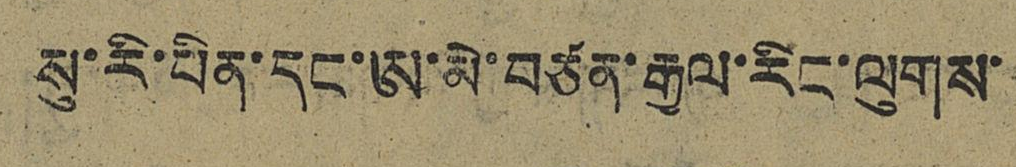སུ་རི་པིན་དང་ཨ་མེ་བཙན་རྒྱལ་རིང་ལུགས་
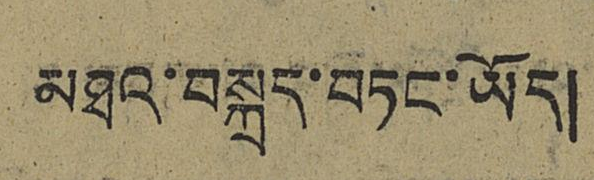མཐའ་བསྐྲད་བཏང་ཡོད།
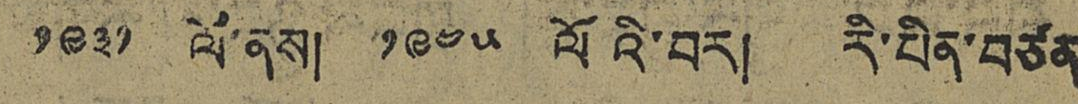༡༩༣༡ ལོ་ནས། ༡༩༤༥ ལོའི་བར། རི་པིན་བཙན
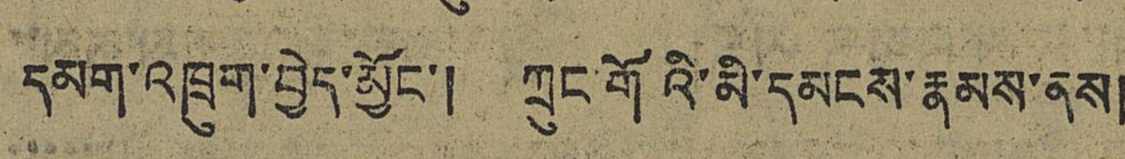དམག་འཁྲུག་བྱེད་མྱོང་། ཀྲུང་གོའི་མི་དམངས་རྣམས་ནས།
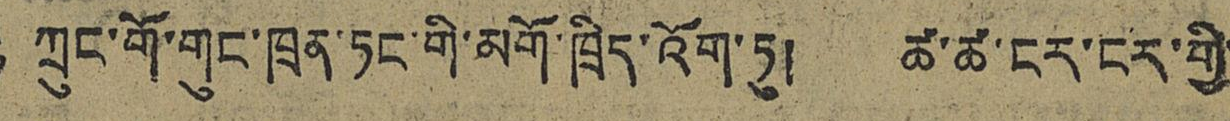ཀྲུང་གོ་གུང་ཁྲན་ཏང་གི་མགོ་ཁྲིད་འོག་ཏུ། ཚ་ཚ་ངར་ངར་གྱི་
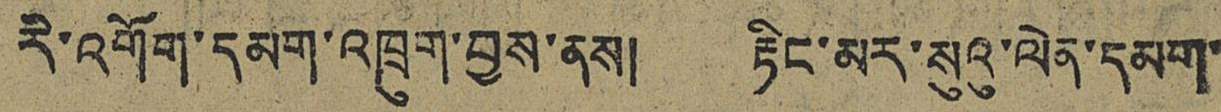རི་འགོག་དམག་འཁྲུག་བྱས་ནས། རྟིང་མར་སུའུ་ལེན་དམག་
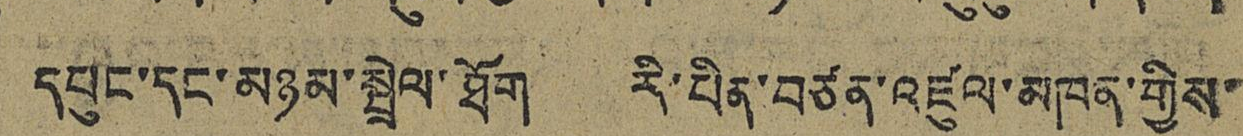དཔུང་དང་མཉམ་སྦྲེལ་ཐོག རི་པིན་བཙན་འཛུལ་མཁན་གྱིས་
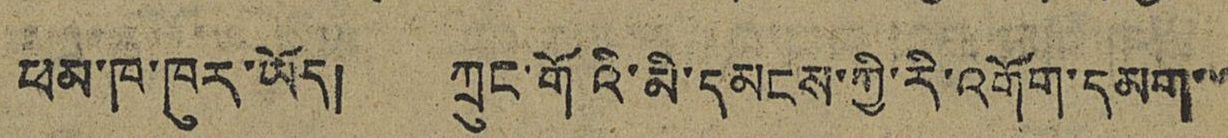ཕམ་ཁ་ཁུར་ཡོད། ཀྲུང་གོའི་མི་དམངས་ཀྱི་རི་འགོག་དམག་་
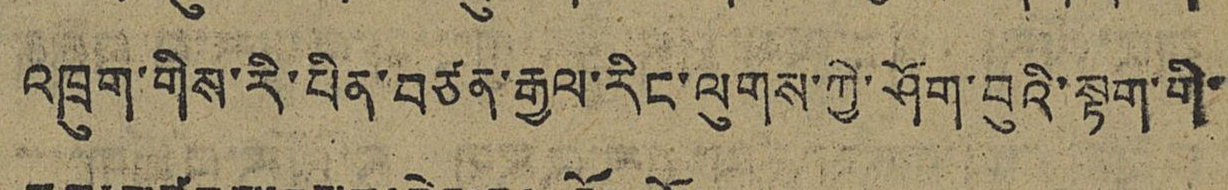འཁྲུག་གིས་རི་པིན་བཙན་རྒྱལ་རིང་ལུགས་ཀྱི་ཤོག་བུའི་སྟག་གི་
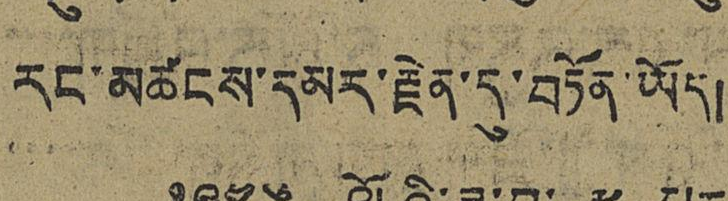རང་མཚོངས་དཔར་ཆེན་དུ་བཏོན་ཡོད།
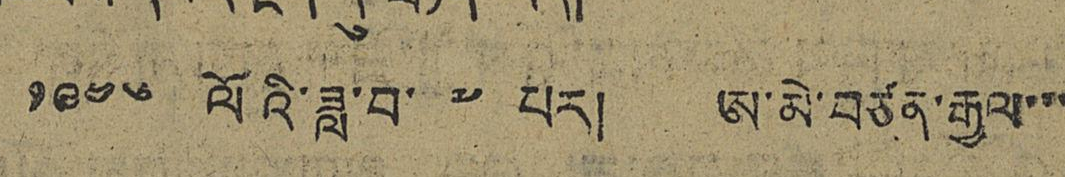༡༩༦༦ ལོའི་ཟླ་བ་ ༧ པར། ཨ་མེ་བཙན་རྒྱལ་་་
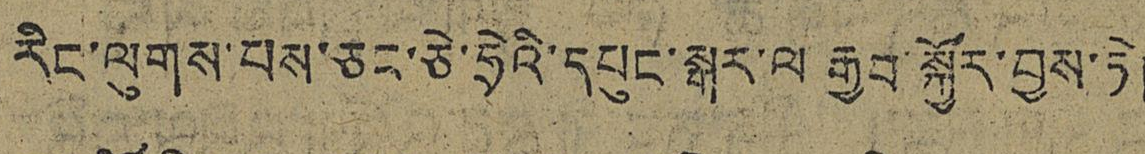རིང་ལུགས་པས་ཅང་ཅེ་ཧྲེའི་དཔུང་སྒར་བརྒྱབ སྐྱོར་བྱས་ཏེ།
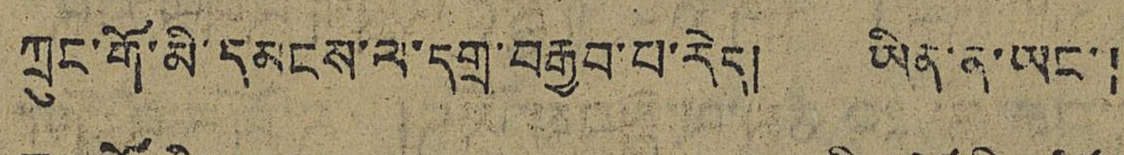ཀྲུང་གོ་མི་དམངས་འ་དྲབ་བརྒྱབ་པ་རེད། ཡིན་ན་ཡང་།
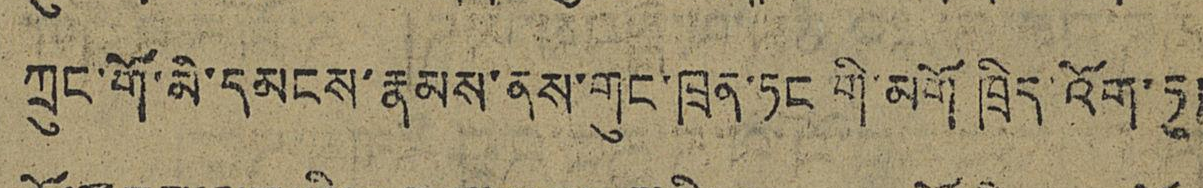ཀྲུང་གོ་མི་དམངས་རྣམས་ནས་གུང་ཁྲན་ཏང་གི་མགོ་ཁྲིད་འོག་ཏུ།
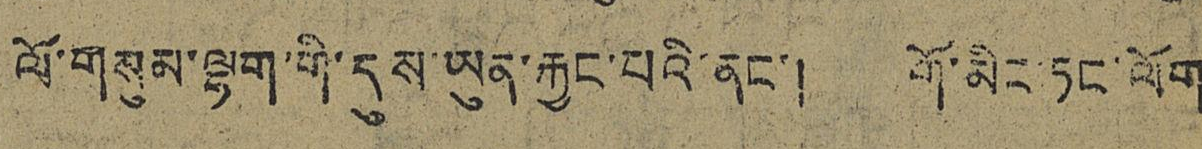ལོ་གསུམ་ལྷག་གི་དུས་ཡུན་རྐྱང་པའི་ནང་། གོ་མིང ཏང་ལོག
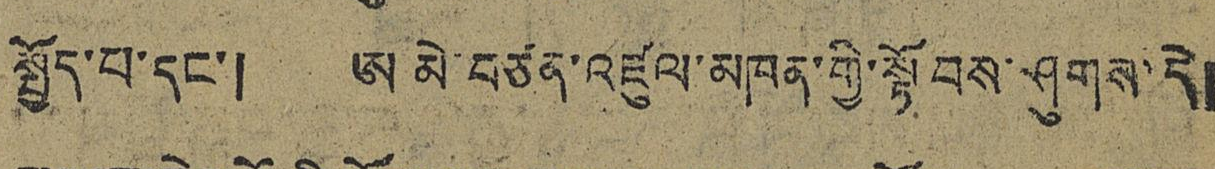སྤྱོད་པ་དང་། ཨ་མེ་བཙན་འཛུལ་མཁན་གྱི་སྟོབས་ཤུགས་དེ།
